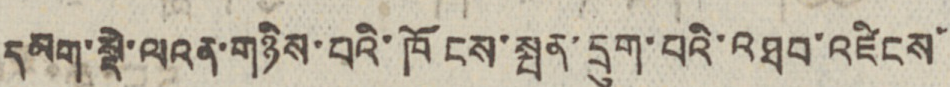དམག་སྡེ་ལའན་གཉིས་པའི་ཁོངས་སྤན་དྲུག་པའི་འཐབ་འཛིངས་
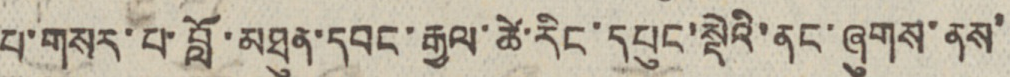པ་གསར་པ་བློ་མཐུན་དབང་རྒྱལ་ཚེ་རིང་དཔུང་སྡེའི་ནང་ཞུགས་ནས་
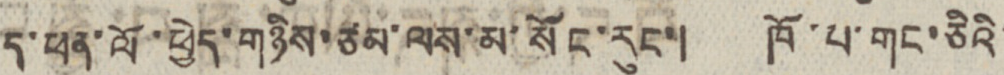ད་ཕན་ལོ་ཕྱེད་གཉིས་ཙམ་ལས་མ་སོང་རུང་། ཁོ་པ་གང་ཅིའི་
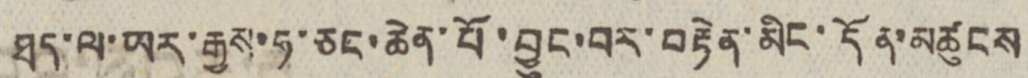ཐད་ལ་ཡར་རྒྱས་ཧ་ཅང་ཆེན་པོ་བྱུང་བར་བརྟེན་མིང་དོན་མཚུངས
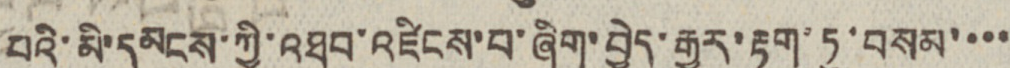པའི་མི་དམངས་ཀྱི་འཐབ་འཛིངས་པ་ཞིག་བྱེད་རྒྱུར་རྟག་ཏུ་བསམ་་་་
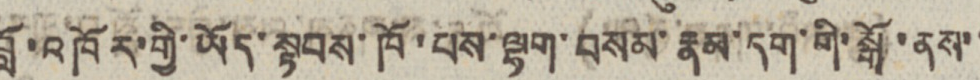བློ་འཁོར་གྱི་ཡོད་སྟབས་ཁོ་པས་ལྷག་བསམ་རྣམ་དག་གི་སྒོ་ནས་་
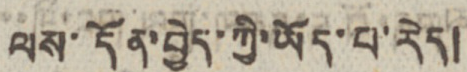ལས་དོན་བྱེད་ཀྱི་ཡོད་པ་རེད།
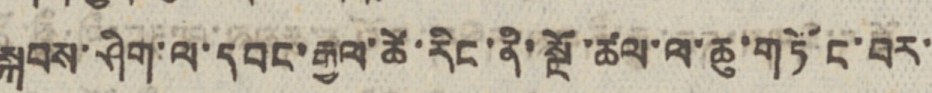སྐབས་ཤིག་ལ་དབང་རྒྱལ་ཚེ་རིང་ནི་སྔོ་ཚལ་ལ་ཆུ་གཏོང་བར་
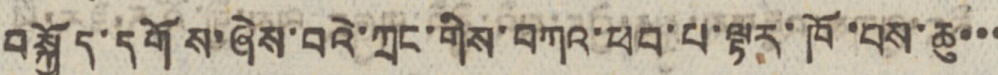བསྐྱོད་དགོས་ཞེས་པའི་ཀྲང་གིས་བཀའ་ཕབ་པ་ལྟར་ཁོ་པས་ཆུ་་་
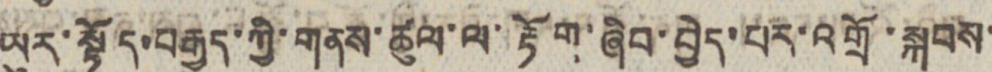ཡུར་སྟོད་བརྒྱུད་ཀྱི་གནས་ཚུལ་ལ་རྟོག་ཞིབ་བྱེད་པར་འགྲོ་སྐབས་
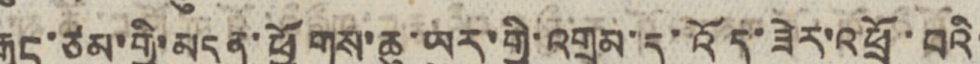རྒྱང་ཙམ་གྱི་མདུན་ཕྱོགས་ཆུ་ཡུར་གྱི་འགྲམ་དུ་འོད་ཟེར་འཕྲོ་བའི་
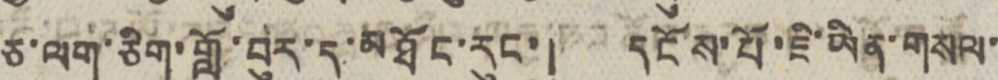ཅ་ལག་ཅིག་གློ་བུར་དུ་མཐོང་རུང་། དངོས་པོ་ཇི་ཡིན་གསལ་
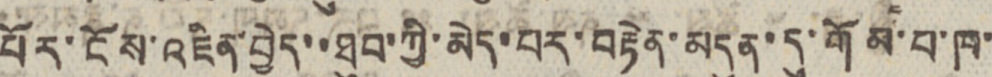པོར་ངོས་འཛིན་བྱེད་་ཐུབ་ཀྱི་མེད་པར་བརྟེན་མདུན་དུ་གོམ་པ་ཁ་
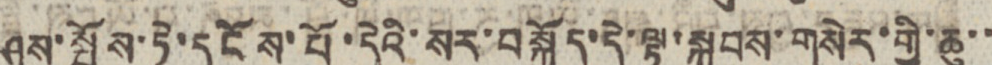ཤས་སྤོས་ཏེ་དངོས་པོ་དེའི་སར་བསྐྱོད་དེ་ལྟ་སྐབས་གསེར་གྱི་ཆུ་་
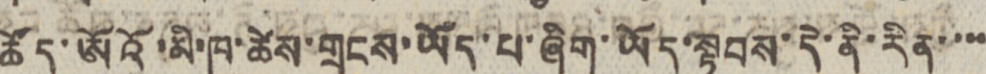ཚོད་ཨོའོ་མི་ཁ་ཚེས་གྲངས་ཡོད་པ་ཞིག་ཡོད་སྟབས་དེ་ནི་རིན་་་་
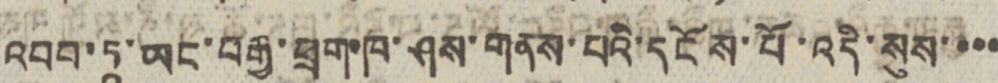འབབ་ཏཱ་ཡང་བརྒྱ་ཕྲག་ཁ་ཤས་གནས་པའི་དངོས་པོ་འདི་སུས་་་་
